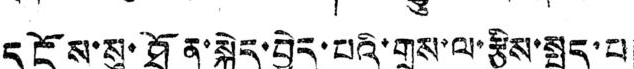དངོས་སུ་ཐོན་སྐྱེད་བྱེད་པའི་གྲས་ལ་རྩིས་སྤྲད་པ།
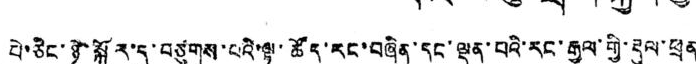པེ་ཅིང་ཉེ་སྐོར་དུ་བཙུགས་པའི་ལྟ་ཚོད་རང་བཞིན་དང་ལྡན་པའི་རང་རྒྱལ་གྱི་རྡུལ་ཕྲན
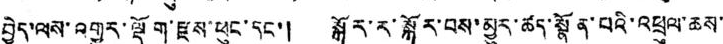བྱེད་ལས་འགྱུར་ལྡོག་རྫས་ཕུང་དང་། སྒོར་ར་སྐོར་བས་མྱུར་ཚད་སྣོན་པའི་འཕྲུལ་ཆས་
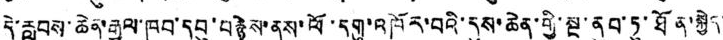དེ་རླབས་ཆེན་རྒྱལ་ཁབ་དབུ་བརྙེས་ནས་ལོ་དགུ་འཁོར་བའི་དུས་ཆེན་གྱི་སྔ་ནུབ་ཏུ་ཐོན་སྐྱེད་
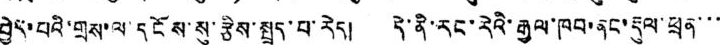བྱེད་པའི་གྲས་ལ་དངོས་སུ་རྩིས་སྤྲད་པ་རེད། དེ་ནི་རང་རེའི་རྒྱལ་ཁབ་ནང་རྡུལ་ཕྲན་་་
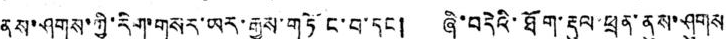ནུས་ཤུགས་ཀྱི་རིག་གསར་ཡར་རྒྱས་གཏོང་བ་དང ། ཞི་བདེའི་ཐོག་རྡུལ་ཕྲན་ནུས་ཤུགས
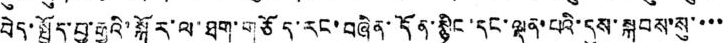བེད་སྤྱོད་བྱ་རྒྱུའི་སྐོར་ལ་ཐག་གཅོད་རང་བཞིན་དོན་སྙིང་དང་ལྡན་པའི་དུས་སྐབས་སུ་་་་
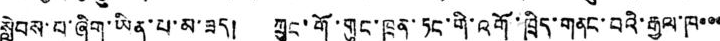སླེབས་པ་ཞིག་ཡིན་པ་མ་ཟད། ཀྲུང་གོ་གུང་ཁྲན་ཏང་གི་འགོ་ཁྲིད་གནང་བའི་རྒྱལ་ཁ་་་
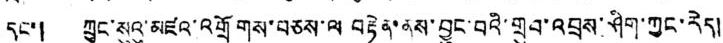དང་། ཀྲུང་སུའུ་མཛའ་འགྲོགས་བཅས་ལ བརྟེན་ནས་བྱུང་བའི་གྲུབ་འབྲས་ཤིག་ཀྱང་རེད།
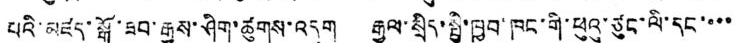པའི་མཛད་སྒོ་ཟབ་རྒྱས་ཤིག་ཚུགས་འདུག རྒྱལ་སྲིད་སྤྱི་ཁྱབ་ཁང་གི་ཕུའུ་ཙུང་ལི་དང་་་་
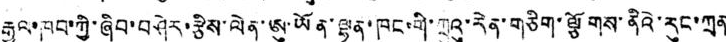རྒྱལ་ཁབ་ཀྱི་ཞིབ་བཤེར་རྩིས་ལེན་ཨུ་ཡོན་ལྷན་ཁང་གི་ཀྲུའུ་རེན་གཅིག་ལྕོགས་ནིའེ་རུང་ཀྲན
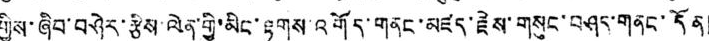གྱིས་ཞིབ་བཤེར་རྩིས་ལེན་གྱི་མིང་རྟགས་འགོད་གནང་མཛད་རྗེས་གསུང་བཤད་གནང་དོན།
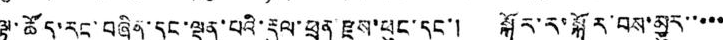ལྟ་ཚོད་རང་བཞིན་དང་ལྡན་པའི་རྡུལ་ཕྲན རྫས་ཕུང་དང་། སྐོར་ར་སྐོར་བས་མྱུར་་་་་
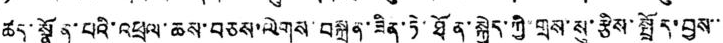ཚད་སྣོན་པའི་འཕྲུལ་ཆས་བཅས་ལེགས་བསྐྲུན་ཟིན་ཏེ་ཐོན་སྐྱེད་ཀྱི་གྲས་སུ་རྩིས་སྤྲོད་བྱས་་་
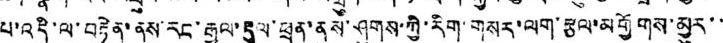པ་འདི་ལ་བརྟེན་ནས་རང་རྒྱལ་རྡུལ་ཕྲན་ནུས་ཤུགས་ཀྱི་རིག་གསར་ལག་རྩལ་མགྱོགས་མྱུར་་
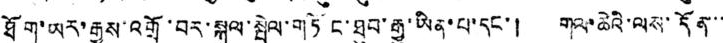ཐོག་ཡར་རྒྱས་འགྲོ་བར་སྐུལ་སྤེལ་གཏོང་ཐུབ་རྒྱུ་ཡིན་པ་དང་། གལ་ཆེའི་ལས་དོན་་
